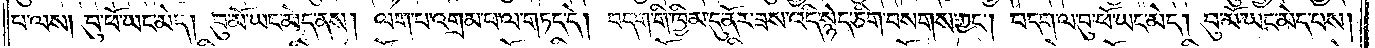པ་ལས། བུ་ཕོ་ཡང་མེད། བུ་མོ་ཡང་མེད་ནས། ལག་པ་འགྲམ་པ་ལ་གཏད་དེ། བདག་གི་ཁྱིམ་དུ་ནོར་ཟས་འདི་སྙེད་ཅིག་བསགས་ཀྱང༌། བདག་ལ་བུ་ཕོ་ཡང་མེད། བུ་མོ་ཡང་མེད་པས།
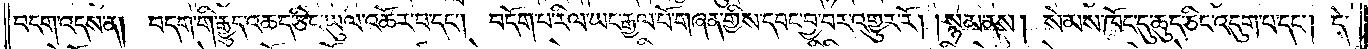བདག་འདས་ན། བདག་གི་རྒྱུད་འཆད་ཅིང་ཡུལ་འཆོར་བ་དང༌། བདོག་པ་རིལ་ཡང་རྒྱལ་པོ་གཞན་གྱིས་དབང་བྱ་བར་འགྱུར་རོ། །སྙམ་ནས། སེམས་ཁོང་དུ་ཆུད་ཅིང་འདུག་པ་དང༌། དེ་
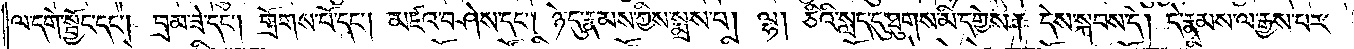ལ་དགེ་སྦྱོང་དང༌། བྲམ་ཟེ་དང༌། གྲོགས་པོ་དང༌། མཛའ་བཤེས་དང༌། ཉེ་དུ་རྣམས་ཀྱིས་སྨྲས་པ། ལྷ། ཅིའི་སླད་དུ་ཐུགས་མི་དགྱེས། དེས་སྐབས་དེ། དེ་རྣམས་ལ་རྒྱས་པར་
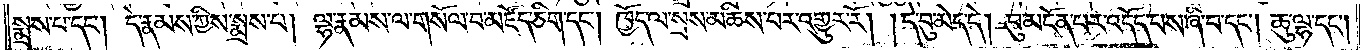སྨྲས་པ་དང༌། དེ་རྣམས་ཀྱིས་སྨྲས་པ། ལྷ་རྣམས་ལ་གསོལ་བ་མཛོད་ཅིག་དང༌། ཁྱོད་ལ་སྲས་མཆིས་པར་འགྱུར་རོ། །དེ་བུ་མེད་དེ། བུ་མངོན་པར་འདོད་པས་ཞི་བ་དང༌། ཆུ་ལྷ་དང༌།
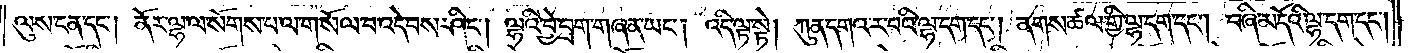ལུས་ངན་དང༌། ནོར་ལྷ་ལ་སོགས་པ་ལ་གསོལ་བ་འདེབས་ཤིང༌། ལྷའི་བྱེ་བྲག་གཞན་ཡང༌། འདི་ལྟ་སྟེ། ཀུན་དགའ་ར་བའི་ལྷ་དག་དང༌། ནགས་ཚལ་གྱི་ལྷ་དག་དང༌། བཞི་མདོའི་ལྷ་དག་དང༌།
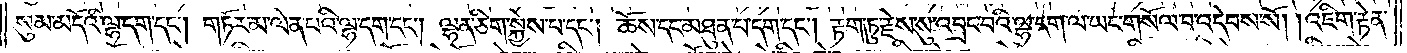སུམ་མདོའི་ལྷ་དག་དང༌། གཏོར་མ་ལེན་པའི་ལྷ་དག་དང༌། ལྷན་ཅིག་སྐྱེས་པ་དང༌། ཆོས་དང་མཐུན་པ་དག་དང༌། རྟག་ཏུ་རྗེས་སུ་འབྲང་བའི་ལྷ་དག་ལ་ཡང་གསོལ་བ་འདེབས་སོ། །འཇིག་རྟེན་
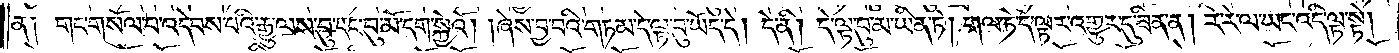ན༑ གང་གསོལ་བ་འདེབས་པའི་རྒྱུ་ལས་བུ་དང་བུ་མོ་དག་སྐྱེའོ། །ཞེས་བྱ་བའི་གཏམ་དེ་ལྟ་བུ་ཡོད་དེ། དེ་ནི། དེ་ལྟ་བུ་མ་ཡིན་ཏེ། གལ་ཏེ་དེ་ལྟར་འགྱུར་དུ་ཟིན་ན། རེ་རེ་ལ་ཡང་འདི་ལྟ་སྟེ།
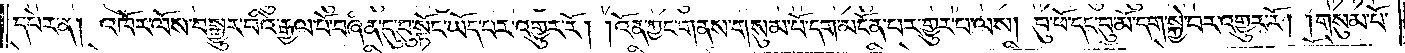དཔེར་ན། འཁོར་ལོས་བསྒྱུར་བའི་རྒྱལ་པོ་བཞིན་དུ་བུ་སྟོང་ཡོད་པར་འགྱུར་རོ། །འོན་ཀྱང་གནས་གསུམ་པོ་དག་མངོན་པར་གྱུར་པ་ལས། བུ་ཕོ་དང་བུ་མོ་དག་སྐྱེ་བར་འགྱུར་རོ། །གསུམ་པོ་
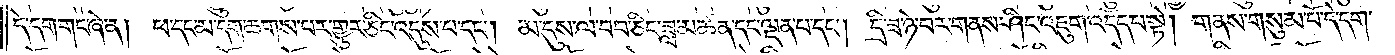དེ་དག་གང་ཞེ་ན། ཕ་དང་མ་དག་ཆགས་པར་གྱུར་ཅིང་འདུས་པ་དང༌། མ་དུས་ལ་བབ་ཅིང་ཟླ་མཚན་དང་ལྡན་པ་དང༌། དྲི་ཟ་ཉེ་བར་གནས་ཤིང་འཇུག་འདོད་པ་སྟེ། གནས་གསུམ་པོ་དེ་དག་
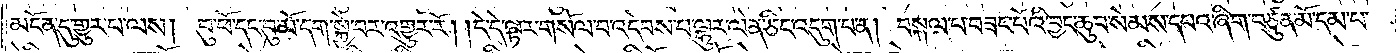མངོན་དུ་གྱུར་པ་ལས། བུ་ཕོ་དང་བུ་མོ་དག་སྐྱེ་བར་འགྱུར་རོ། །དེ་དེ་ལྟར་གསོལ་བ་འདེབས་པ་ལྷུར་ལེན་ཅིང་འདུག་པ་ན། བསྐལ་པ་བཟང་པོའི་བྱང་ཆུབ་སེམས་དཔའ་ཞིག་བཙུན་མོ་དམ་པ་
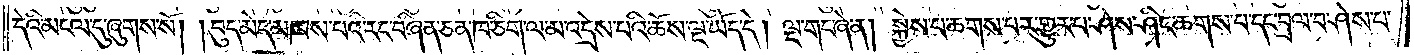དེའི་མངལ་དུ་ཞུགས་སོ། །བུད་མེད་མཁས་པའི་རང་བཞིན་ཅན་ཁ་ཅིག་ལ་མ་འདྲེས་པའི་ཆོས་ལྔ་ཡོད་དེ། ལྔ་གང་ཞེ་ན། སྐྱེས་པ་ཆགས་པར་གྱུར་པ་ཤེས་ཤིང་ཆགས་པ་དང་བྲལ་བ་ཤེས་པ་
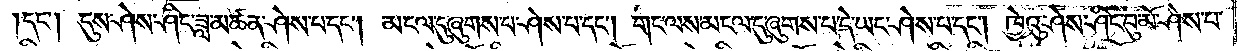དང༌། དུས་ཤེས་ཤིང་ཟླ་མཚན་ཤེས་པ་དང༌། མངལ་དུ་ཞུགས་པ་ཤེས་པ་དང༌། གང་ལས་མངལ་དུ་ཞུགས་པ་དེ་ཡང་ཤེས་པ་དང༌། ཁྱེའུ་ཤེས་ཤིང་བུ་མོ་ཤེས་པ་
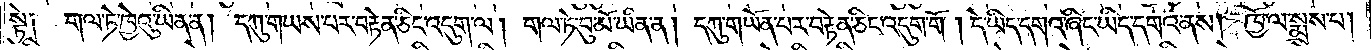སྟེ༑ གལ་ཏེ་ཁྱེའུ་ཡིན་ན། དཀུ་གཡས་པར་བརྟེན་ཅིང་འདུག་ལ། གལ་ཏེ་བུ་མོ་ཡིན་ན། དཀུ་གཡོན་པར་བརྟེན་ཅིང་འདུག་གོ། དེ་ཡིད་དགའ་ཞིང་ཡིད་དགའ་ནས། ཁྱོ་ལ་སྨྲས་པ།
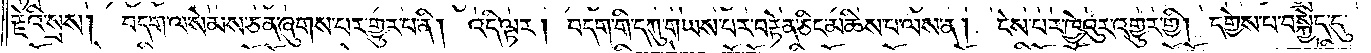རྗེའི་སྲས། བདག་ལ་སེམས་ཅན་ཞུགས་པར་གྱུར་པ་ནི། འདི་ལྟར། བདག་གི་དཀུ་གཡས་པར་བརྟེན་ཅིང་མཆིས་པ་ལས་ན། ངེས་པར་ཁྱེའུར་འགྱུར་གྱི། དགྱེས་པ་བསྐྱེད་དུ་
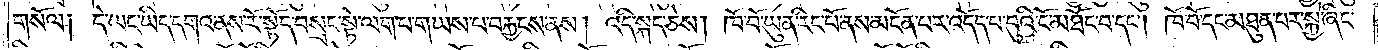གསོལ༑ དེ་ཡང་ཡིད་དགའ་ནས་རོ་སྟོད་བསྲང་སྟེ་ལག་པ་གཡས་པ་བརྐྱངས་ནས། འདི་སྐད་ཅེས། ཁོ་བོ་ཡུན་རིང་པོ་ནས་མངོན་པར་འདོད་པ་བུའི་ངོ་མཐོང་བ་དང༌། ཁོ་བོ་དང་མཐུན་པར་སྐྱེ་ཞིང་
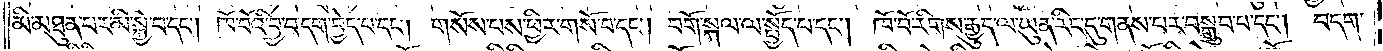མི་མཐུན་པར་མི་སྐྱེ་བ་དང༌། ཁོ་བོའི་བྱ་བ་དག་བྱེད་པ་དང༌། གསོས་པས་ཕྱིར་གསོ་བ་དང༌། བགོ་སྐལ་ལ་སྤྱོད་པ་དང༌། ཁོ་བོ་རིགས་རྒྱུད་ལ་ཡུན་རིང་དུ་གནས་པར་བསྒྲུབ་པ་དང༌། བདག་
